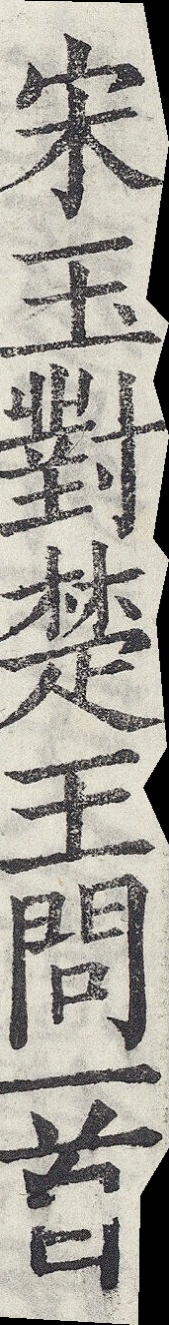宋玉對楚王問一首
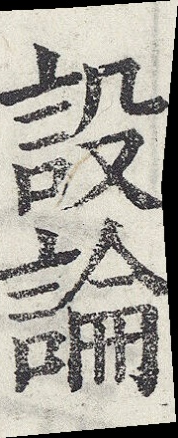設論
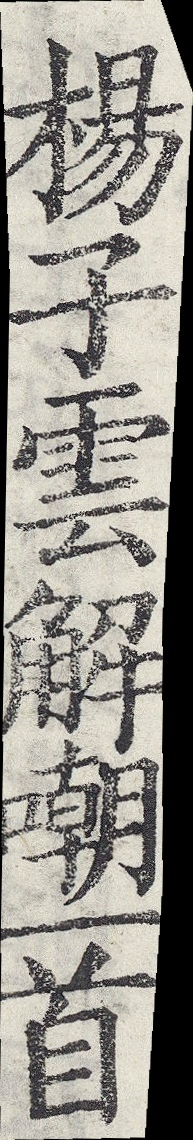楊子雲解嘲一首
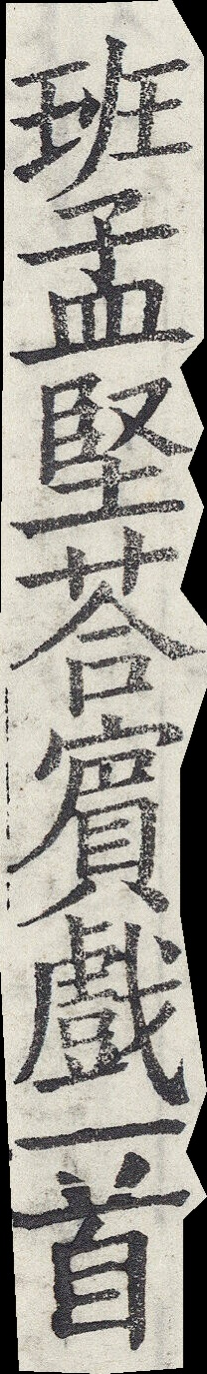班孟堅答賓戲一首
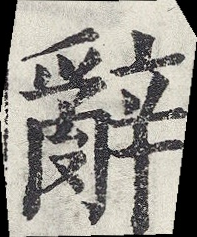辭
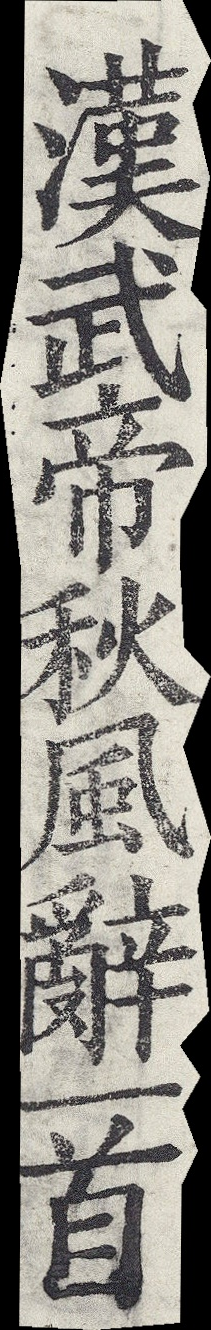漢武帝秋風辭一首
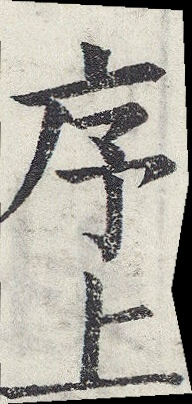序上
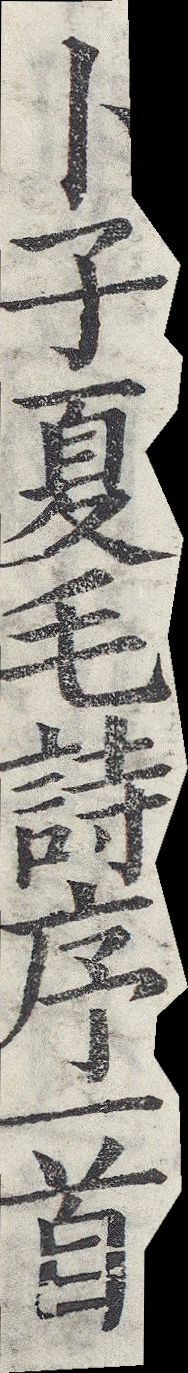卜子夏毛詩序一首
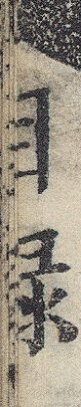目錄
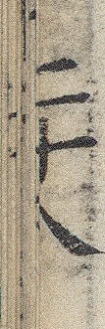二十八
